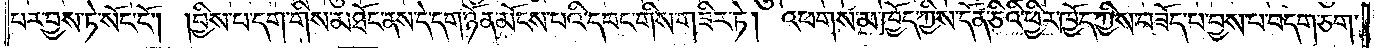པར་བྱས་ཏེ་སོང་ངོ༌། །བྱིས་པ་དག་གིས་མཐོང་ནས་དེ་དག་ཉོན་མོངས་པའི་དབང་གིས་གཟིར་ཏེ། འཕགས་མ་ཁྱོད་ཀྱིས་དོན་ཅིའི་ཕྱིར་ཁྱོད་ཀྱིས་བཟོད་པ་བྱས་པ་བདག་ཅག་
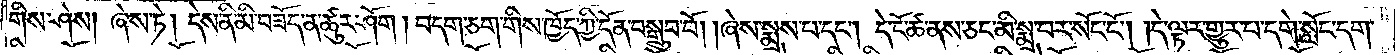གིས་ཤེས། ཞེས་ཏེ། དེས་ནི་མི་བཟོད་ན་ཚུར་ཤོག །བདག་ཅག་གིས་ཁྱོད་ཀྱི་དོན་བསྒྲུབ་བོ། །ཞེས་སྨྲས་པ་དང༌། དེ་ངོ་ཚ་ནས་ཅང་མི་སྨྲ་བར་སོང་ངོ༌། །དེ་ལྟར་གྱུར་པ་དགེ་སློང་དག་
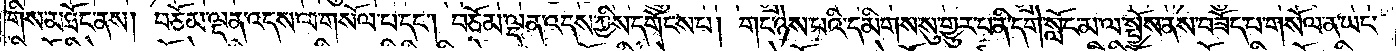གིས་མཐོང་ནས། བཅོམ་ལྡན་འདས་ལ་གསོལ་པ་དང༌། བཅོམ་ལྡན་འདས་ཀྱིས་དགོངས་པ། གང་ཉེས་པའི་དམིགས་སུ་གྱུར་པ་ནི་དགེ་སློང་མ་ལ་སྤྱོས་ནས་བཟོད་པ་གསོལ་ན་ཡང་
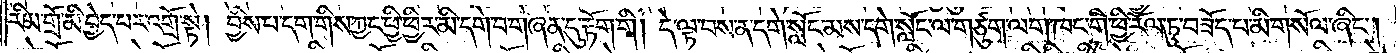རིམ་གྲོ་མི་བྱེད་པར་འགྲོ་སྟེ། བྱིས་པ་དག་གིས་ཀྱང་ཕྱི་ཕྱིར་མི་དགེ་བ་གཞན་དུ་རྟོག་གི། དེ་ལྟ་བས་ན་དགེ་སློང་མས་དགེ་སློང་ལ་གཙུག་ལག་ཁང་གི་ཕྱི་རོལ་ཏུ་བཟོད་པ་མི་གསོལ་ཞིང༌།
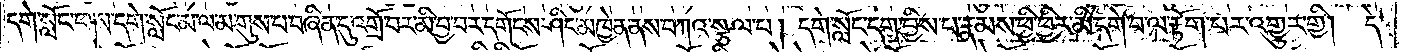དགེ་སློང་ཕས་དགེ་སློང་མ་ལ་མ་གུས་པ་བཞིན་དུ་འགྲོ་བར་མི་བྱ་བར་དགོངས་ཤིང་མཁྱེན་ནས་བཀའ་སྩལ་པ། དགེ་སློང་དག་བྱིས་པ་རྣམས་ཕྱི་ཕྱིར་མི་དགེ་བ་ལ་རྟོག་པར་འགྱུར་གྱི། དེ་
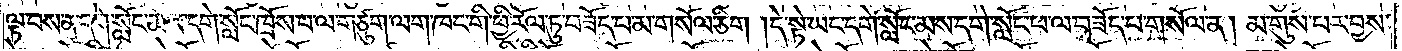ལྟ་བས་ན་དགེ་སློང་མས་དགེ་སློང་ཁྲོས་པ་ལ་གཙུག་ལག་ཁང་གི་ཕྱི་རོལ་ཏུ་བཟོད་པ་མ་གསོལ་ཅིག །དེ་སྟེ་ཡང་དགེ་སློང་མས་དགེ་སློང་ཕ་ལ་བཟོད་པ་གསོལ་ན། མ་གུས་པར་བྱས་
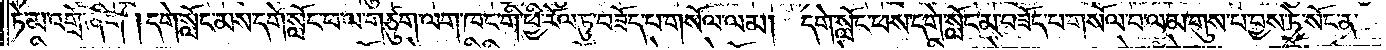ཏེ་མ་འགྲོ་ཞིག །དགེ་སློང་མས་དགེ་སློང་ཕ་ལ་གཙུག་ལག་ཁང་གི་ཕྱི་རོལ་ཏུ་བཟོད་པ་གསོལ་ལམ། དགེ་སློང་ཕས་དགེ་སློང་མ་བཟོད་པ་གསོལ་བ་ལ་མ་གུས་པ་བྱས་ཏེ་སོང་ན་
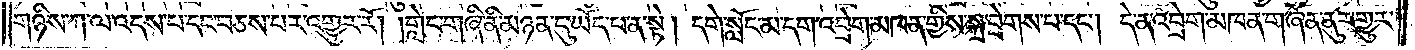གཉིས་ཀ་ལ་འདས་པ་དང་བཅས་པར་འགྱུར་རོ། །གླེང་གཞི་ནི་མཉན་དུ་ཡོད་པ་ན་སྟེ། དགེ་སློང་མ་དག་འབྲེག་མཁན་གྱིས་སྐྲ་བྲེག་པ་དང༌། དེ་ན་འབྲེག་མཁན་གཞོན་ནུར་གྱུར་
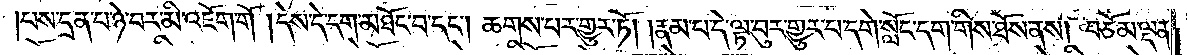པས་དྲན་པ་ཉེ་བར་མི་འཇོག་གོ །དེས་དེ་དག་མཐོང་བ་དང༌། ཆགས་པར་གྱུར་ཏོ། །རྣམ་པ་དེ་ལྟ་བུར་གྱུར་པ་དགེ་སློང་དག་གིས་ཐོས་ནས། བཅོམ་ལྡན་
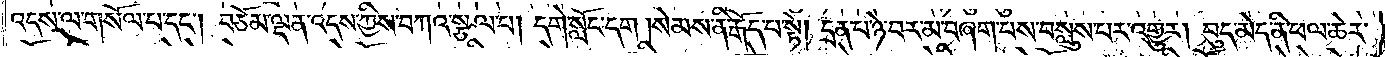འདས་ལ་གསོལ་པ་དང༌། བཅོམ་ལྡན་འདས་ཀྱིས་བཀའ་སྩལ་པ། དགེ་སློང་དག །སེམས་ནི་རྒོད་པ་སྟེ། དྲན་པ་ཉེ་བར་མ་བཞག་པས་བསླུས་པར་འགྱུར། བུད་མེད་ནི་ཕལ་ཆེར་
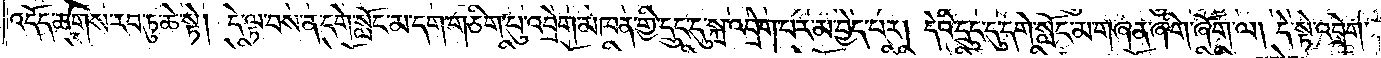འདོད་ཆགས་རབ་ཏུ་ཆེ་སྟེ། དེ་ལྟ་བས་ན་དགེ་སློང་མ་དག་གཅིག་པུ་འབྲེག་མཁན་གྱི་དྲུང་དུ་སྐྲ་འབྲེག་པར་མ་བྱེད་པར། དེའི་དྲུང་དུ་དགེ་སློང་མ་གཞན་ཞིག་ཞོག་ལ། དེ་སྟེ་འབྲེག་
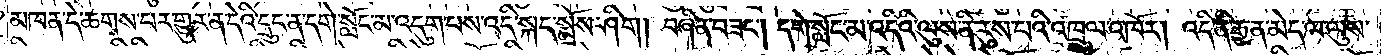མཁན་དེ་ཆགས་པར་གྱུར་ན་དེའི་དྲུང་ན་དགེ་སློང་མ་འདུག་པས་འདི་སྐད་སྨྲོས་ཤིག། བཞིན་བཟང༌། དགེ་སློང་མ་འདིའི་ལུས་ནི་རུས་པའི་འཁྲུལ་འཁོར། འདི་ནི་རྒྱན་མེད་ལ་ལུས་
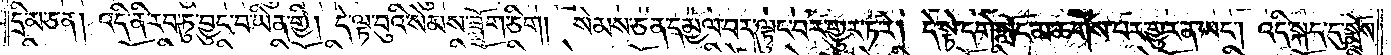དྲི་མ་ཅན། འདི་ནི་རབ་ཏུ་བྱུང་བ་ཡིན་གྱི། དེ་ལྟ་བུའི་སེམས་ཟློག་ཅིག། སེམས་ཅན་དམྱལ་བར་ལྟུང་བར་གྱུར་ཏ་རེ། དེ་སྟེ་དགེ་སློང་མ་ཆགས་པར་གྱུར་ན་ཡང༌། འདི་སྐད་དུ་སྨྲོས་
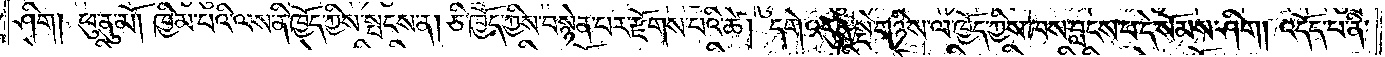ཤིག། ཕུ་ནུ་མོ། ཁྱིམ་བའི་ལས་ནི་ཁྱོད་ཀྱིས་སྤངས་ན། ཅི་ཁྱོད་ཀྱིས་བསྙེན་པར་རྫོགས་པའི་ཚེ། དགེ་འདུན་སྡེ་གཉིས་ལ་ཁྱོད་ཀྱིས་ཁས་བླངས་པ་དེ་སོམས་ཤིག། འདོད་པ་ནི་
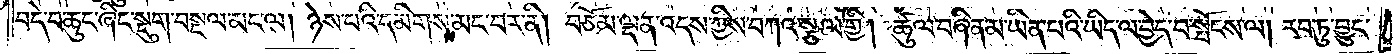བདེ་བ་ཆུང་ཞིང་སྡུག་བསྔལ་མང་ལ། ཉེས་པའི་དམིགས་མང་བར་ནི། བཅོམ་ལྡན་འདས་ཀྱིས་བཀའ་སྩལ་གྱི། ཚུལ་བཞིན་མ་ཡིན་པའི་ཡིད་ལ་བྱེད་བ་སྤོངས་ལ། རབ་ཏུ་བྱུང་
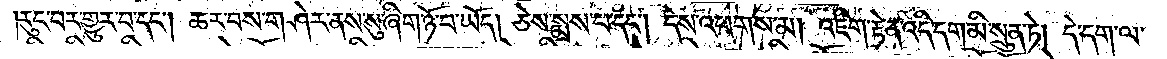རུང་བར་གྱུར་བ་དང༌། ཆར་བས་གཤེར་ནས་སུ་ཞིག་ཉོ་བ་ཡོད། ཅེས་སྨྲས་པ་དང༌། དེས་འཕགས་མ། འཇིག་རྟེན་འདི་དག་མི་སྲུན་ཏེ། དེ་དག་ལ་
